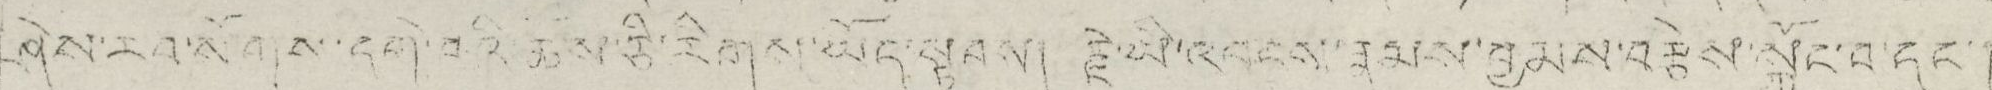ཤེས་རབ་སོགས་སྒེ་བའི་ཆོས་ཅི་རིགས་ཡོད་སྟབས། རྗེ་ཡི་འབངས་རྣམས་བྱམས་བརྩེས་སྐྱོང་བ་དང་
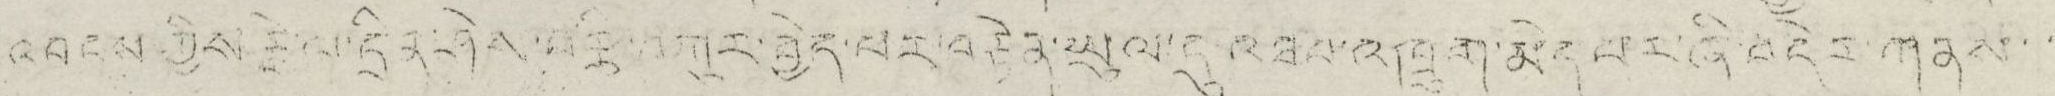འབངས ཀྱིས རྗེ་ལ་དྲིན་ཤེས་བརྩི་བཀུར་བྱེད་པར་བརྟེན་ཡུལ་དུ འཐབ་འཁྲུག་མེད་བར་ཞི་བདེར་གནས་་་
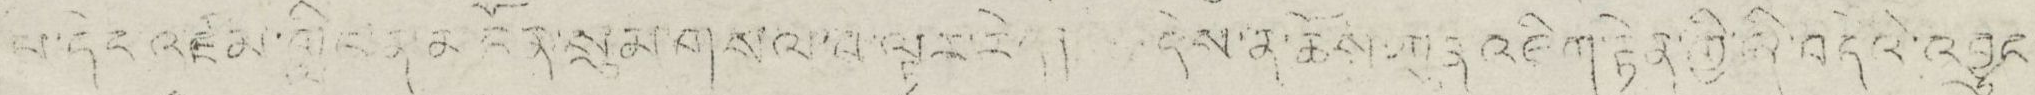པ་དེང འཛམ་གླིང་ན་མངོན་གསུམ་གསལ་བ་ལྟར་རེད། དེས་ན་ཆོས་ཀུན འཇིག་རྟེན་གྱི་ཞི་བདེའི་འབྱུང་
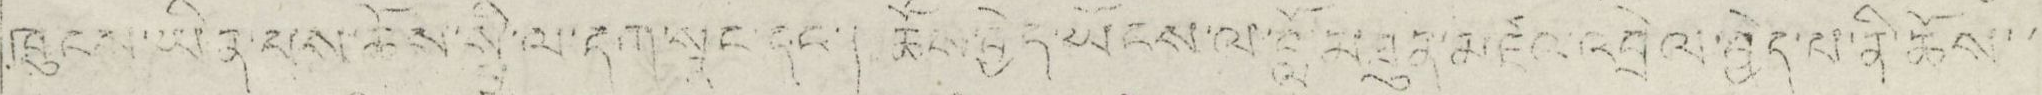ཁུངས་ཡིན་པས་ཆོས་སྤྱི་ལ་དག་སྣང་དང་། ཆོས་བྱེད་ཡོངས་ལ་བློ་མཐུན་འཛའ་འབྲེལ་བྱེད་པ་ནི་ཆོས་་་
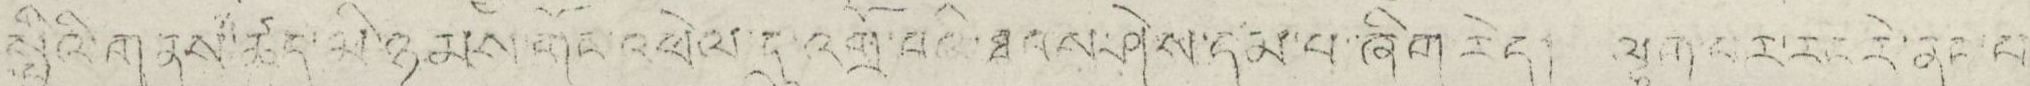སྤྱིའི་གནས་ཚད་མི་ཉམས་གོང་འཕེལ་དུ་འགྲོ་བའི་ཐབས་ཤེས་དམ་པ་ཞིག་རེད། ལྷག་པར་རང་རེ་ནང་པ་
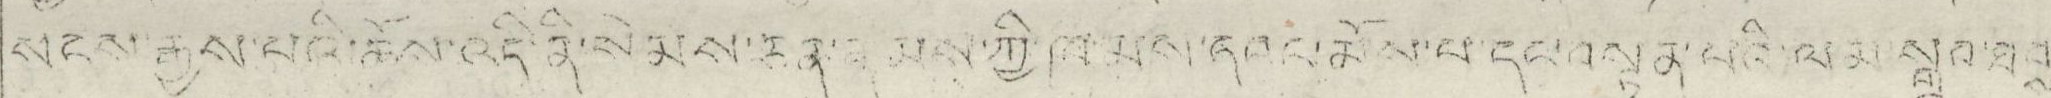སངས་རྒྱས་པའི་ཆོས་འདི་ནི་སེམས་ཅན་རྣམས་ཀྱི་ཁམས་དབང་མོས་པ་དང་བསྟུན་པའི་ལམ་སྒྲུབ་ཐབས་
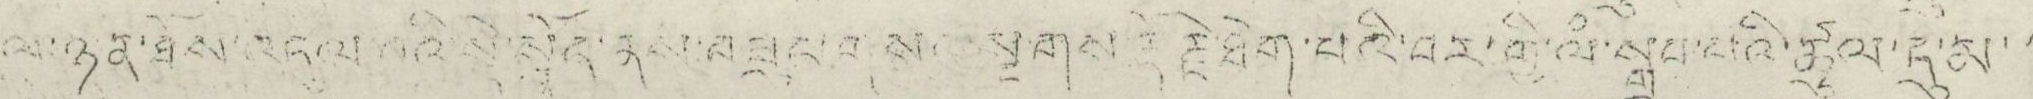ལ་ཉན་ཐོས་འདུལ་བའི་སྡེ་སྣོད་ནས་བཟུང་གསལ་སྔགས་རྡོ་རྗེ་ཐེག་པའི་བར་གྱི་ལཾ་སྒྲབ་པའི་ཚུལ་དུ་མ་་་
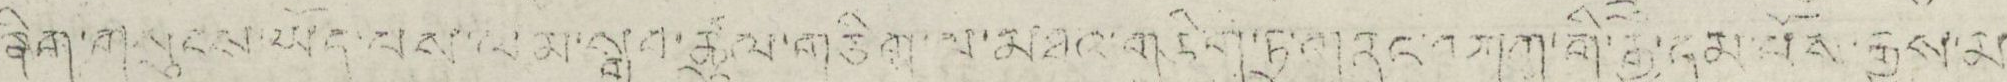ཞིག་གསུངས་ཡོད་པས་ལམ་སྒྲུབ་ཚུལ་གཅིག་ལ་འཐའ་གཅིག་ཏུ་གནང་བཀག་གི་རྒྱ་དམ་པོས་རྒྱས་མ་་
